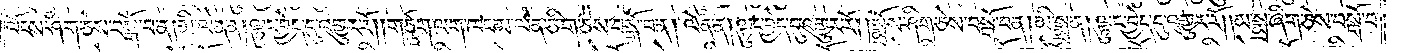ལོངས་ཤིག་ཅེས་བསྒོ་བ་ན།མི་ལེན་ན། ལྟུང་བྱེད་དུ་འགྱུར་རོ། །གཙུག་ལག་ཁང་མ་ལེན་ཅིག་ཅེས་བསྒོ་བ་ན། ལེན་ན། ལྟུང་བྱེད་དུ་འགྱུར་རོ༎སྨྲོས་ཤིག་ཅེས་བསྒོ་བ་ན། མི་སྨྲ་ན། ལྟུང་བྱེད་དུ་འགྱུར་རོ༎མ་སྨྲ་ཞིག་ཅེས་བསྒོ་བ་
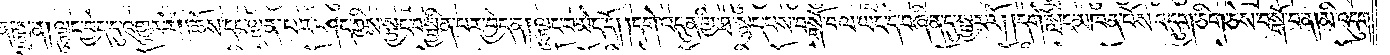ན།སྨྲ་ན།ལྟུང་བྱེད་དུ་འགྱུར་རོ༎ཆོས་དང་ལྡན་པར་ཤད་ཀྱིས་སྦྱང་བ་སྦྱིན་པར་བྱེད་ན།ལྟུང་བ་མེད་དོ༎དགེ་འདུན་གྱི་ཐ་སྙད་པས་བསྒོ་བ་ལ་ཡང་དེ་བཞིན་དུ་སྦྱར་རོ༎དགེ་སློང་མཁན་པོས་འདུག་ཅིག་ཅེས་བསྒོ་བ་ན། མི་འདུག་
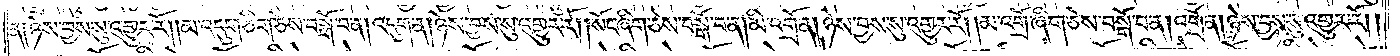ན།ཉེས་བྱས་སུ་འགྱུར་རོ༎མ་འདུག་ཅིག་ཅེས་བསྒོ་བ་ན།འདུག་ན།ཉེས་བྱས་སུ་འགྱུར་རོ༎སོང་ཞིག་ཅེས་བསྒོ་བ་ན། མི་འགྲོ་ན།ཉེས་བྱས་སུ་འགྱུར་རོ༎མ་འགྲོ་ཞིག་ཅེས་བསྒོ་བ་ན། འགྲོ་ན། ཉེས་བྱས་སུ་འགྱུར་རོ༎
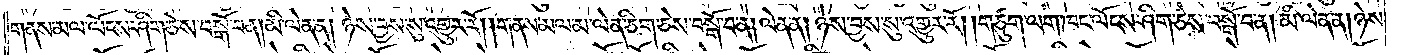གནས་མལ་ལོངས་ཤིག་ཅེས་བསྒོ་བ་ན། མི་ལེན་ན། ཉེས་བྱས་སུ་འགྱུར་རོ། །གནས་མལ་མ་ལེན་ཅིག་ཅེས་བསྒོ་བ་ན། ལེན་ན། ཉེས་བྱས་སུ་འགྱུར་རོ། །གཙུག་ལག་ཁང་ལོངས་ཤིག་ཅེས་བསྒོ་བ་ན། མི་ལེན་ན། ཉེས་
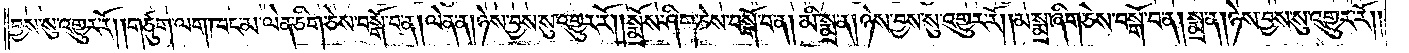བྱས་སུ་འགྱུར་རོ། །གཙུག་ལག་ཁང་མ་ལེན་ཅིག་ཅེས་བསྒོ་བ་ན། ལེན་ན། ཉེས་བྱས་སུ་འགྱུར་རོ། །སྨྲོས་ཤིག་ཅེས་བསྒོ་བ་ན། མི་སྨྲ་ན། ཉེས་བྱས་སུ་འགྱུར་རོ། །མ་སྨྲ་ཞིག་ཅེས་བསྒོ་བ་ན། སྨྲ་ན། ཉེས་བྱས་སུ་འགྱུར་རོ༎
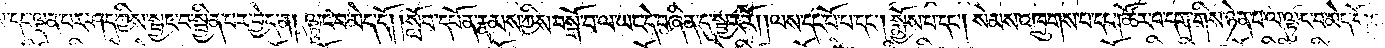དང་ལྡན་པར་ཤད་ཀྱིས་སྦྱང་བ་སྦྱིན་པར་བྱེད་ན། ལྟུང་བ་མེད་དོ། །སློབ་དཔོན་རྣམས་ཀྱིས་བསྒོ་བ་ལ་ཡང་དེ་བཞིན་དུ་སྦྱར་རོ། །ལས་དང་པོ་པ་དང༌། སྨྱོས་པ་དང༌། སེམས་འཁྲུགས་པ་དང༌། ཚོར་བ་དག་གིས་ཉེན་པ་ལ་ལྟུང་བ་མེད་དོ། །
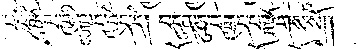པའི་ཚུལ་གྱི་ལྟུང་བྱེད་དེ། བདུན་ཅུ་བརྒྱད་པ་རྫོགས་སོ༎
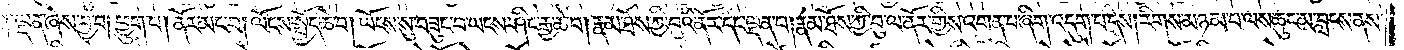ལྡན་ཞེས་བྱ་བ། ཕྱུག་པ། ནོར་མང་བ། ལོངས་སྤྱོད་ཆེ་བ། ཡོངས་སུ་བཟུང་བ་ཡངས་ཤིང་རྒྱ་ཆེ་བ། རྣམ་ཐོས་ཀྱི་བུའི་ནོར་དང་ལྡན་པ། རྣམ་ཐོས་ཀྱི་བུ་ལ་ནོར་གྱིས་འགྲན་པ་ཞིག་འདུག་པ་དེས། རིགས་མཉམ་པ་ལས་ཆུང་མ་བླངས་ནས་
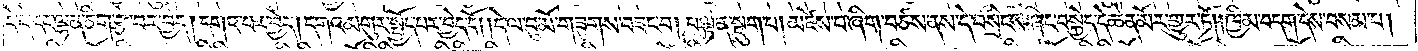དེ་དེ་དང་ལྷན་ཅིག་རྩེ་བར་བྱེད། དགའ་བར་བྱེད། དགའ་མགུར་སྤྱོད་པར་བྱེད་དོ། །དེ་ལ་བུ་མོ་གཟུགས་བཟང་བ། བལྟ་ན་སྡུག་པ། མཛེས་པ་ཞིག་བཙས་ནས་དེ་བསྲིངས་ཤིང་བསྐྱེད་དེ་ཆེན་མོར་གྱུར་ཏོ། །ཁྱིམ་བདག་དེས་བསམ་པ།
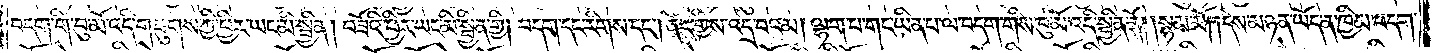བདག་གི་བུ་མོ་འདི་གཟུགས་ཀྱི་ཕྱིར་ཡང་མི་སྦྱིན། བཟོའི་ཕྱིར་ཡང་མི་སྦྱིན་གྱི། བདག་དང་རིགས་དང༌། ནོར་གྱིས་འདྲ་བའམ། ལྷག་པ་གང་ཡིན་པ་ལ་བདག་གིས་བུ་མོ་འདི་སྦྱིན་ནོ། །སྙམ་མོ། །དེས་མཉན་ཡོད་ན་ཁྱིམ་བདག་
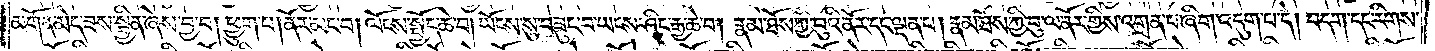མགོན་མེད་ཟས་སྦྱིན་ཞེས་བྱ་བ། ཕྱུག་པ། ནོར་མང་བ། ལོངས་སྤྱོད་ཆེ་བ། ཡོངས་སུ་བཟུང་བ་ཡངས་ཤིང་རྒྱ་ཆེ་བ། རྣམ་ཐོས་ཀྱི་བུའི་ནོར་དང་ལྡན་པ། རྣམ་ཐོས་ཀྱི་བུ་ལ་ནོར་གྱིས་འགྲན་པ་ཞིག་འདུག་པ་དེ། བདག་དང་རིགས་
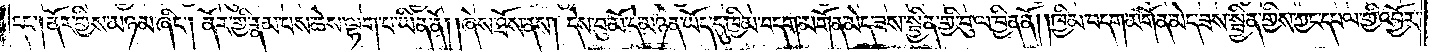དང༌། ནོར་གྱིས་མཉམ་ཞིང༌། ནོར་གྱི་རྣམ་པས་ཆེས་ལྷག་པ་ཡིན་ནོ། །ཞེས་ཐོས་ནས། དེས་བུ་མོ་དེ་མཉན་ཡོད་དུ་ཁྱིམ་བདག་མགོན་མེད་ཟས་སྦྱིན་གྱི་བུ་ལ་བྱིན་ནོ། །ཁྱིམ་བདག་མགོན་མེད་ཟས་སྦྱིན་གྱིས་ཀྱང་དཔལ་གྱི་འབྱོར་
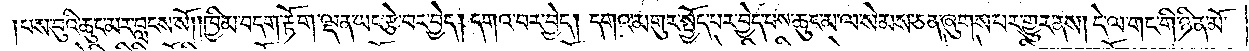པས་བུའི་ཆུང་མར་བླངས་སོ། །ཁྱིམ་བདག་རྟོག་ལྡན་ཡང་རྩེ་བར་བྱེད། དགའ་བར་བྱེད། དགའ་མགུར་སྤྱོད་པར་བྱེད་པས་ཆུང་མ་ལ་སེམས་ཅན་ཞུགས་པར་གྱུར་ནས། དེ་ལ་གང་གི་ཉིན་མོ་
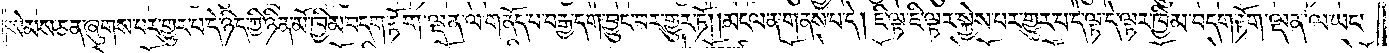སེམས་ཅན་ཞུགས་པར་གྱུར་པ་དེ་ཉིད་ཀྱི་ཉིན་མོ་ཁྱིམ་བདག་རྟོག་ལྡན་ལ་གནོད་པ་བརྒྱ་དག་བྱུང་བ་གྱུར་ཏོ། །མངལ་ན་གནས་པ་དེ། ཇི་ལྟ་ཇི་ལྟར་སྐྱེས་པར་གྱུར་པ་དེ་ལྟ་དེ་ལྟར་ཁྱིམ་བདག་རྟོག་ལྡན་ལ་ཡང་
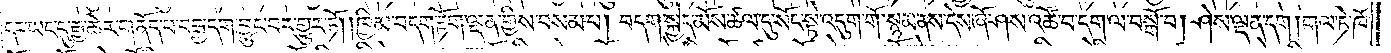དང་ཡང་དུ་རྒྱ་ཆེར་གནོད་པ་བརྒྱ་དག་བྱུང་བར་གྱུར་ཏོ༎ཁྱིམ་བདག་རྟོག་ལྡན་གྱིས་བསམ་པ། བདག་སྐྱེད་མོས་ཚལ་དུ་སོང་སྟེ་འདུག་གོ་སྙམ་ནས་དེས་ཞོ་ཤས་འཚོ་བ་དག་ལ་བསྒོ་བ། ཤེས་ལྡན་དག །གལ་ཏེ་ཁོ་
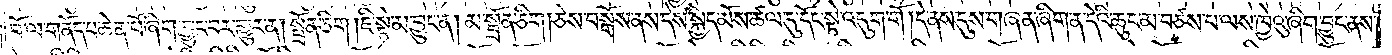བོ་ལ་གནོད་པ་ཆེན་པོ་ཞིག་བྱུང་བར་གྱུར་ན། སྦྲོན་ཅིག །ཇི་སྟེ་མ་བྱུང་ན། མ་སྦྲོན་ཅིག།ཅེས་བསྒོས་ནས་དེས་སྐྱེད་མོས་ཚལ་དུ་དོང་སྟེ་འདུག་གོ།དེ་ནས་དུས་གཞན་ཞིག་ན་དེའི་ཆུང་མ་བཙས་པ་ལས་ཁྱེའུ་ཞིག་བྱུང་ནས་
